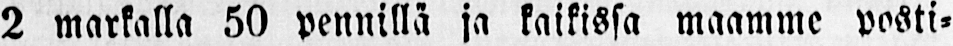2 markalla 50 pennillä ja kaikissa maamme posti-
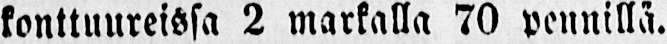konttuureissa 2 markalla 70 pennillä.
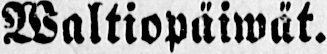Waltiopäiwät.
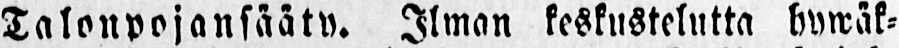Talonpojansääty. Ilman keskustelutta hywäk-
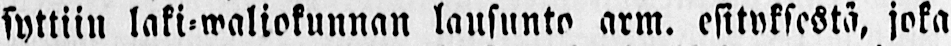syttiin laki-waliokunnan lausunta arm. esityksestä, joka
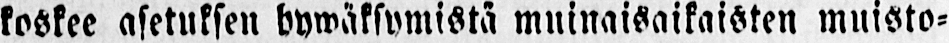koskee asetuksen hywäksymistä muinaisaikaisten muisto-
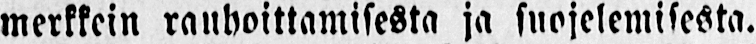merkkein rauhoittamisesta ja suojelemisesta.
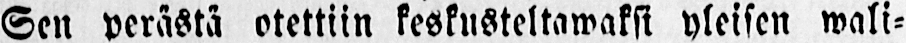Sen perästä otettiin keskusteltawaksi yleisen wali-
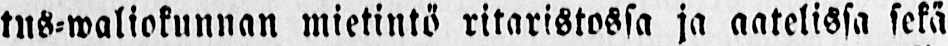tus-waliokunnan mietintö ritaristossa ja aatelissa sekä
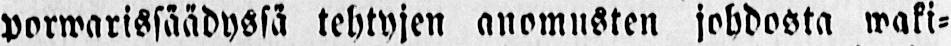porwarissäädyssä tehtyjen anomusten johdosta waki-
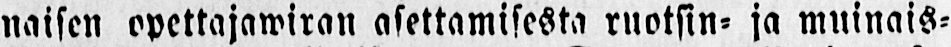naisen opettajawiran asettamisesta ruotsin- ja muinais-
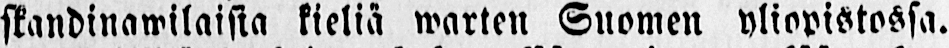skandinawilaisia kieliä warten Suomen yliopistossa.
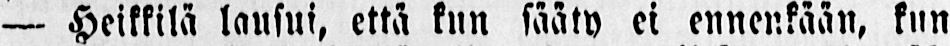— Heikkilä lausui, että kun sääty ei ennenkään, kun
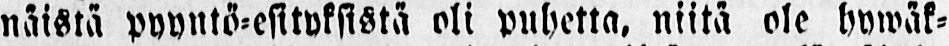näistä pyyntö-esityksistä oli puhetta. niitä ole hywäk-
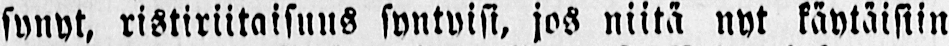synyt, ristiriitaisuus syntyisi, jos niitä nyt käytäisiin
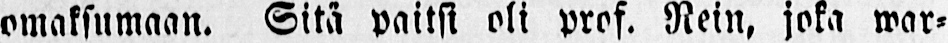omaksumaan. Sitä paitsi oli prof. Rein, joka war-
